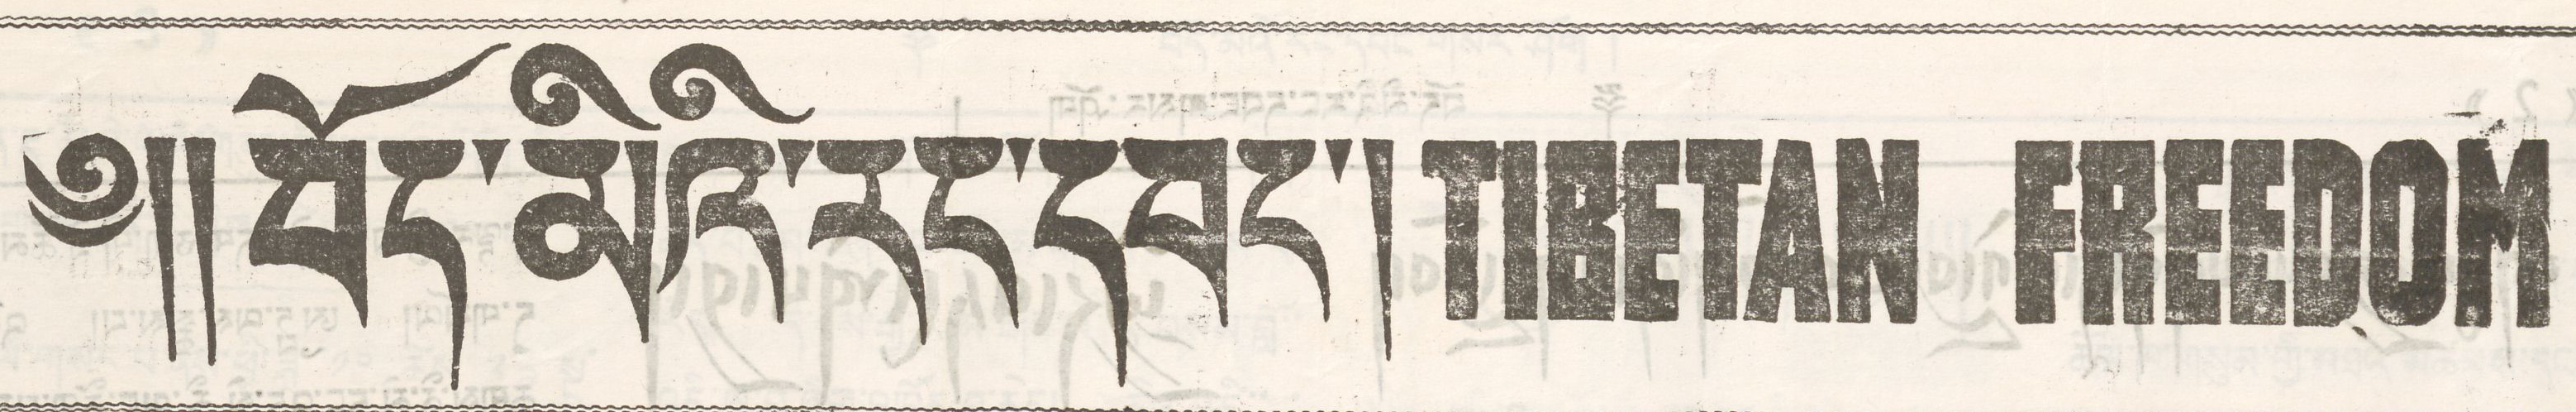༄།།བོད་མིའི་རང་དབང་། TIBETAN FREEDOM
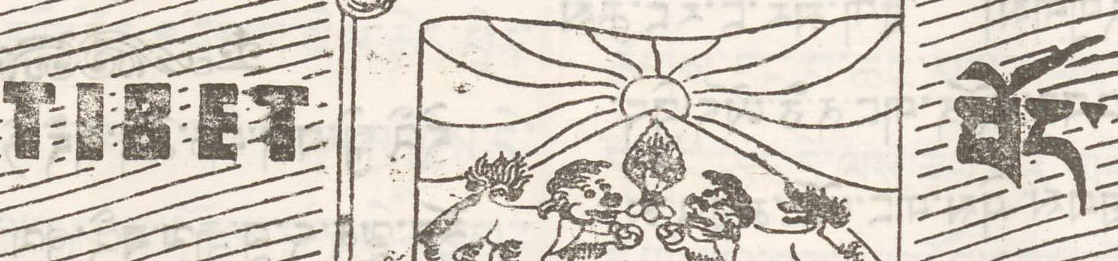TIBET བོད་
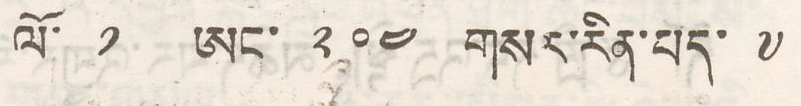ལོ་ ༡ ཨང་ ༢༠༤ གསར་རིན་པད་ ༧
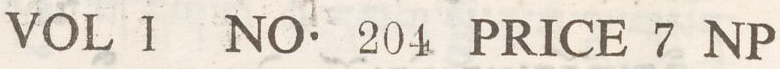VOL 1 NO. 204 PRICE 7 NP
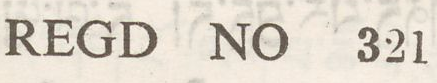REDG NO 321
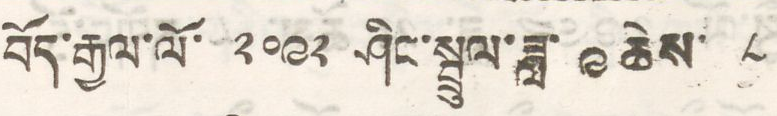བོད་རྒྱལ་ལོ ༢༠༩༢ ཤིང་སྤྲུལ་ཟླ་ ༩ ཚེས་ ༨
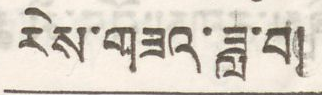རེས་གཟའ་ཟླ་བ།
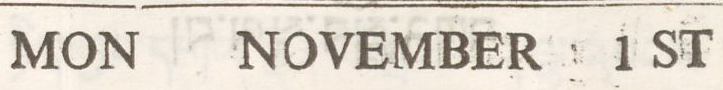MON NOVEMBER 1 ST
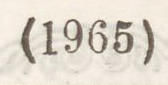(1965)
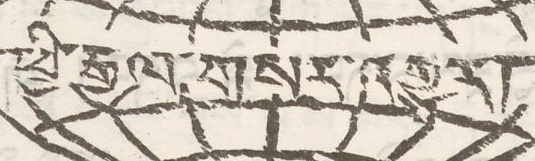ཕྱི་རྒྱལ་གསར་འགྱུར།
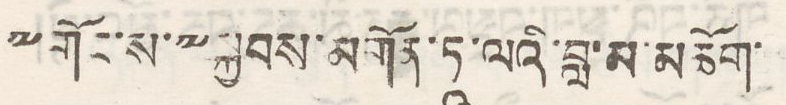༸གོང་ས་༸སྐྱབས་མགོན་ཏྰ་ལའི་བླ་མ་མཆོག་
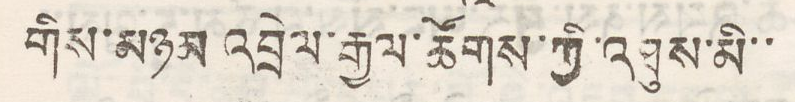གིས་མཉམ འབྲེལ་རྒྱལ་ཚོགས་ཀྱི་འཐུན་མི་་
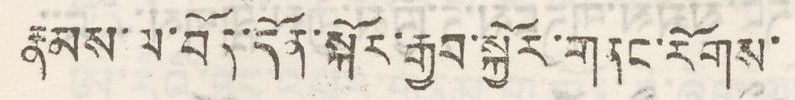རྣམས་ལ་བོད་དོན་སྐོར་རྒྱབ་སྐྱོར་གནང་རོགས་
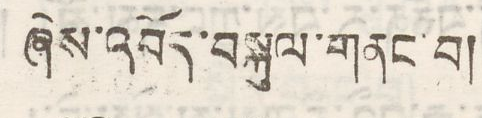ཞེས་འབོད་བསྐུལ་གནང་བ།
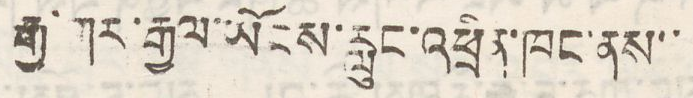རྒྱ་གར་ཡོངས་རླུང་འཕྲིན་ཁང་ནས་་
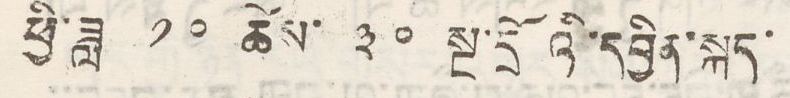ཕྱི་ཟླ ༡༠ ཚེས་ ༣༠ སྔ་དྲོའི་དབྱིན་སྐད་
